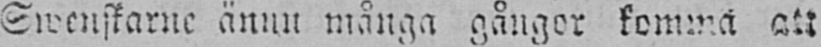Swenskarne ännu många gångor komma att
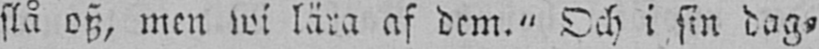slå osz, men wi lära af dem." Och i sin dag-
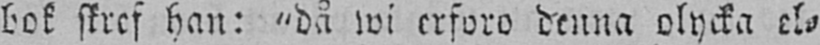bok skref han: "då wi erforo denna olycka el-
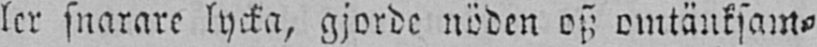ler snarare lycka, gjorde nöden osz omtänksam-
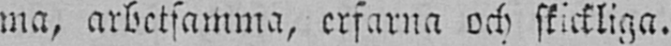ma, arbetsamma, erfarna och skickliga.
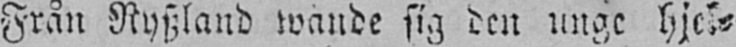Från Ryszland wände sig den unge hjel-
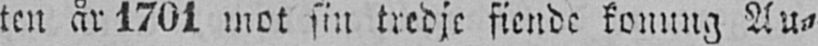ten år 170l mot sin tredje fiende konung Au-
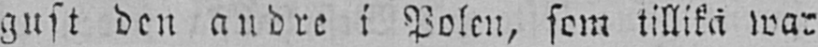gust den andre i Polen, som tillika war
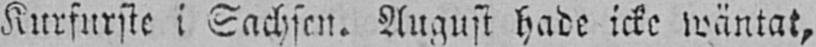Kurfurste i Sachsen. August hade icke wäntat,
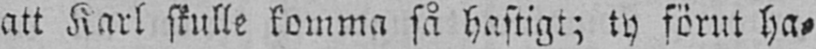att Karl skulle komma så hastigt; ty förut ha-
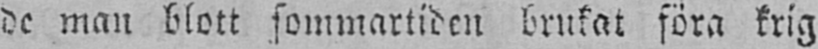de man blott sommartiden brukat föra krig
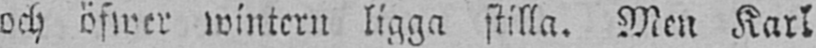och öfwer wintern ligga stilla. Men Karl
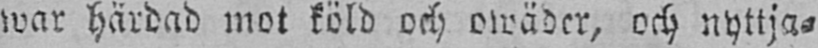war härdad mot köld och owäder, och nyttja-
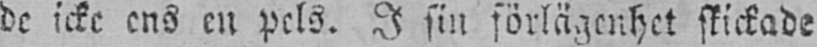de icke ens en pels. I sin förlägenhet skickade
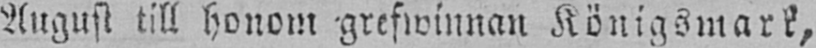August till honom grefwinnan Königsmark,
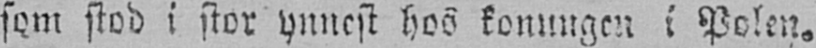som stod i stor ynnest hos konungen i Polen.
